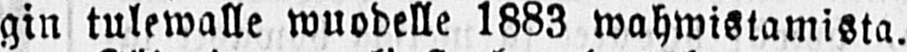gin tulewalle wuodelle 1883 wahwistamista.
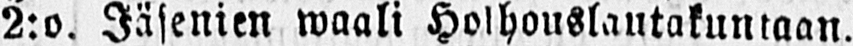2:o. Jäsenien waali Holhouslautakuntaan.
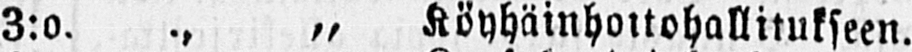3:o. „ Köyhäinhoitohallitukseen.
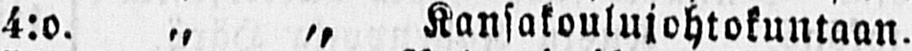4:o. „ „ Kansakoulujohtokuntaan.
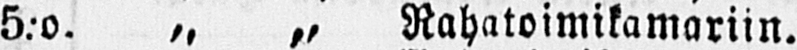5.o. „ „ Rahatoimikamariin.
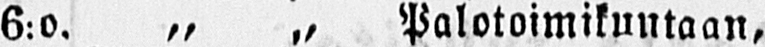6:o. „ „ Palotoimikuntaan,
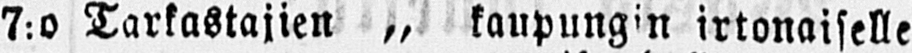7:o Tarkastajien „ kaupungin irtonaiselle
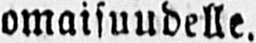omaisuudelle.
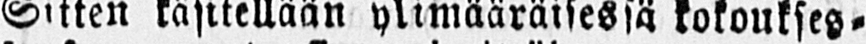Sitten käsitellään ylimääräisessä kokoukses-
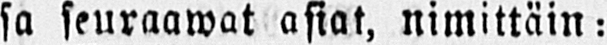sa seuraawat asiat, nimittäin:
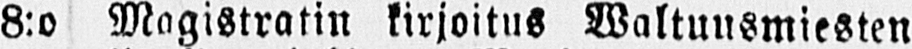8:o Magistratin kirjoitus Waltuusmiesten
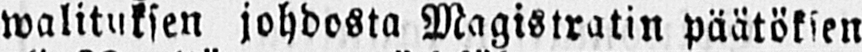walituksen johdosta Magistratin päätöksen
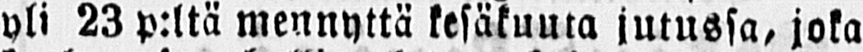yli 23 p:ltä mennyttä kesäkuuta jutussa, joka
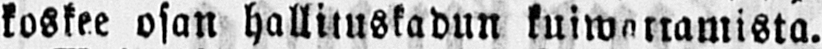koskee osan hallituskadun kuiwattamista.
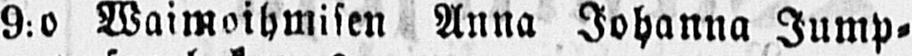9:o Waimoihmisen Anna Johanna Jump-
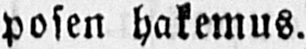posen hakemus.
